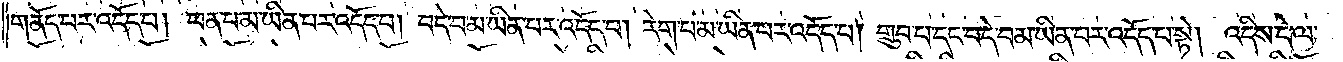གནོད་པར་འདོད་པ། ཕན་པ་མ་ཡིན་པར་འདོད་པ། བདེ་བ་མ་ཡི་པར་འདོད་པ། རེག་པ་མ་ཡིན་པར་འདོད་པ། གྲུབ་པ་དང་བདེ་བ་མ་ཡིན་པར་འདོད་པ་སྟེ། འདིས་དེ་ལ་
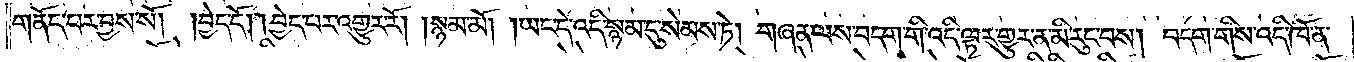གནོད་པར་བྱས་སོ། །བྱེད་དོ། །བྱེད་པར་འགྱུར་རོ། །སྙམ་མོ། །ཡང་དེ་འདི་སྙམ་དུ་སེམས་ཏེ། གཞན་ལས་བདག་གི་འདི་ལྟར་གྱུར་ན་མི་རུང་བས། བདག་གིས་འདི་ཁོ་ན་
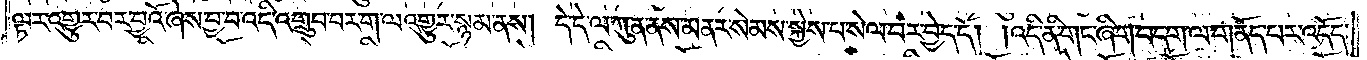ལྟར་འགྱུར་བར་བྱའོ་ཞེས་བྱ་བ་འདི་འགྲུབ་པར་ག་ལ་འགྱུར་སྙམ་ནས། དེ་དེ་ལ་ཀུན་ནས་མནར་སེམས་སྐྱེས་པ་སེལ་བར་བྱེད་དོ། །འདི་ནི་གང་ཞིག་བདག་ལ་གནོད་པར་འདོད་
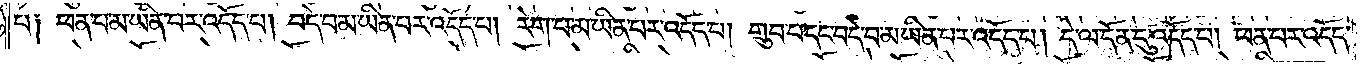པ༑ ཕན་པ་མ་ཡིན་པར་འདོད་པ། བདེ་བ་མ་ཡིན་པར་འདོད་པ། རེག་པ་མ་ཡིན་པར་འདོད་པ། གྲུབ་པ་དང་བདེ་བ་མ་ཡིན་པར་འདོད་པ། དེ་ལ་དོན་དུ་འདོད་པ། ཕན་པར་འདོད་
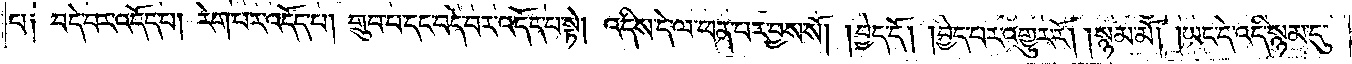པ༑ བདེ་བར་འདོད་པ། རེག་པར་འདོད་པ། གྲུབ་པ་དང་བདེ་བར་འདོད་པ་སྟེ། འདིས་དེ་ལ་ཕན་པར་བྱས་སོ། །བྱེད་དོ། །བྱེད་པར་འགྱུར་རོ། །སྙམ་མོ། །ཡང་དེ་འདི་སྙམ་དུ་
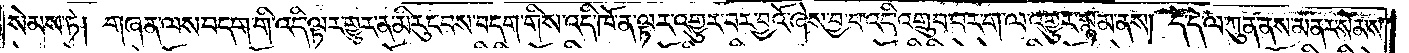སེམས་ཏེ། གཞན་ལས་བདག་གི་འདི་ལྟར་གྱུར་ན་མི་རུང་བས་བདག་གིས་འདི་ཁོ་ན་ལྟར་འགྱུར་བར་བྱའོ་ཞེས་བྱ་བ་འདི་འགྲུབ་པར་ག་ལ་འགྱུར་སྙམ་ནས། དེ་དེ་ལ་ཀུན་ནས་མནར་སེམས་
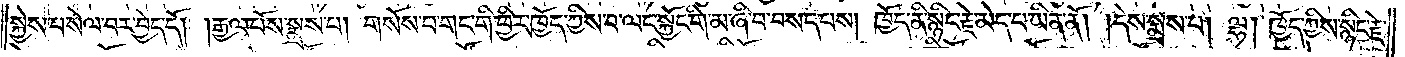སྐྱེས་པ་སེལ་བར་བྱེད་དོ། །རྒྱལ་པོས་སྨྲས་པ། གསོས་པ་གང་གི་ཕྱིར་ཁྱོད་ཀྱིས་བ་ལང་སྐྱོང་གི་མ་ཞི་བ་བསད་པས། ཁྱོད་ནི་སྙིང་རྗེ་མེད་པ་ཡིན་ནོ། །དེས་སྨྲས་པ། ལྷ། ཁྱོད་ཀྱིས་སྙིང་རྗེ་
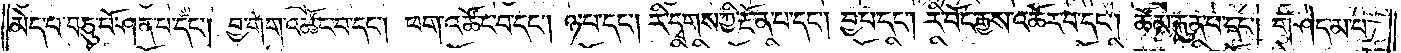མེད་པ་བཅུ་པོ་ཤན་པ་དང༌། བྱ་གག་འཚོང་བ་དང༌། ཕག་འཚོང་བ་དང༌། ཉ་བ་དང༌། རི་དྭགས་ཀྱི་རྔོན་པ་དང༌། བྱ་བ་དང༌། རི་བོང་རྒྱས་འཚོར་བ་དང༌། ཚོམ་རྐུན་པ་དང༌། གཤེད་མ་པ་
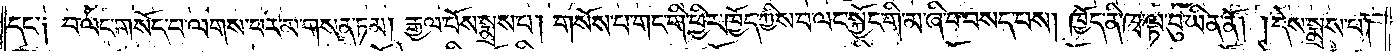དང་༑ བ་ལང་གསོད་པ་ལགས་པ་མར་གསན་ཏམ། རྒྱལ་པོས་སྨྲས་པ། གསོས་པ་གང་གི་ཕྱིར་ཁྱོད་ཀྱིས་བ་ལང་སྐྱོང་གི་མ་ཞི་བ་བསད་བས། ཁྱོད་ནི་ཁྭ་ལྟ་བུ་ཡིན་ནོ། །དེས་སྨྲས་པ།
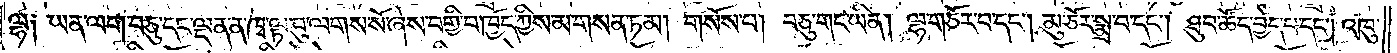ལྷ༑ ཡན་ལག་བཅུ་དང་ལྡན་ན་ཁྭ་ལྟ་བུ་ལགས་སོ་ཞེས་བགྱི་བ་ཁྱོད་ཀྱིས་མ་གསན་ཏམ། གསོས་པ། བཅུ་གང་ཡིན། ལྷ་གཅོར་བ་དང༌། མུ་ཅོར་སྨྲ་བ་དང༌། ཐུབ་ཚོད་བྱེད་པ་དང༌། འཁུ་
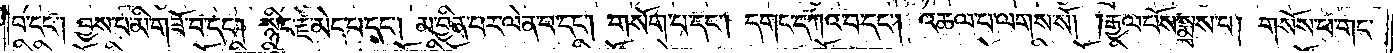བ་དང༌། བྱས་པ་མི་གཟོ་བ་དང༌། སྙིང་རྗེ་མེད་པ་དང༌། མ་བྱིན་པར་ལེན་པ་དང༌། གསོག་པ་དང༌། དགང་དཀའ་བ་དང༌། འཆལ་པ་ལགས་སོ། །རྒྱལ་པོས་སྨྲས་པ། གསོས་པ་གང་
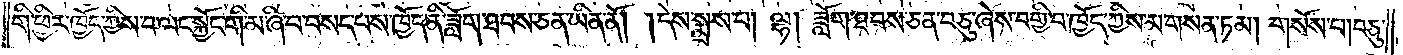གི་ཕྱིར་ཁྱོད་ཀྱིས་བ་ལང་སྐྱོང་གི་མ་ཞི་བ་བསད་པས་ཁྱོད་ནི་ཟློག་ཐབས་ཅན་ཡིན་ནོ། །དེས་སྨྲས་པ། ལྷ། ཟློག་ཐབས་ཅན་བཅུ་ཞེས་བགྱི་བ་ཁྱོད་ཀྱིས་མ་གསན་ཏམ། གསོས་པ། བཅུ་
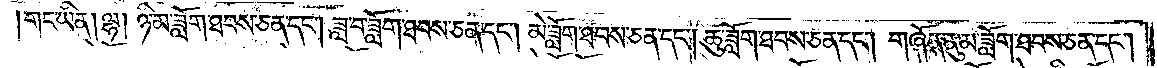གང་ཡིན། ལྷ། ཉི་མ་ཟློག་ཐབས་ཅན་དང༌། ཟླ་བ་ཟློག་ཐབས་ཅན་དང༌། མེ་ཟློག་ཐབས་ཅན་དང༌། ཆུ་ཟློག་ཐབས་ཅན་དང༌། གཞོན་ནུ་མ་ཟློག་ཐབས་ཅན་དང༌།
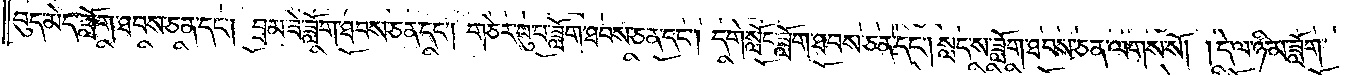བུད་མེད་ཟློག་ཐབས་ཅན་དང༌། བྲམ་ཟེ་ཟློག་ཐབས་ཅན་དང༌། གཅེར་བུ་བ་ཟློག་ཐབས་ཅན་དང༌། དགེ་སློང་ཟློག་ཐབས་ཅན་དང༌། སླད་ས་ཟློག་ཐབས་ཅན་ལགས་སོ། །དེ་ལ་ཉི་མ་ཟློག་
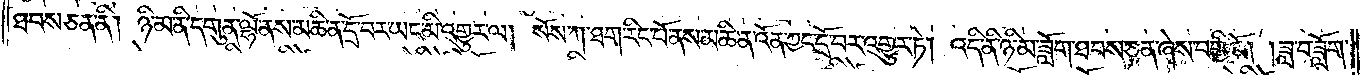ཐབས་ཅན་ནི། ཉི་མ་ནི་དགུན་ལྷོ་ནས་མཆི་ན་དྲོ་བར་ཡང་མི་འགྱུར་ལ། སོས་ཀ་ཐག་རིང་པོ་ནས་མཆི་ན་འོན་ཀྱང་དྲོ་བར་འགྱུར་ཏེ། འདི་ནི་ཉི་མ་ཟློག་ཐབས་ཅན་ཞེས་བགྱིའོ། །ཟླ་བ་ཟློག་
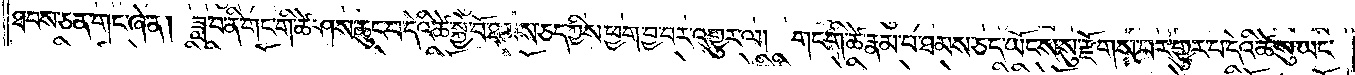ཐབས་ཅན་གང་ཞེ་ན། ཟླ་བ་ནི་གང་གི་ཚེ་ཤས་ཆུང་བ་དེའི་ཚེ་སྐྱེ་བོ་ཐམས་ཅད་ཀྱིས་ཕྱག་བྱ་བར་འགྱུར་ལ། གང་གི་ཚེ་རྣམ་པ་ཐམས་ཅད་ཡོངས་སུ་རྫོགས་པར་གྱུར་པ་དེའི་ཚེ་སུ་ཡང་
